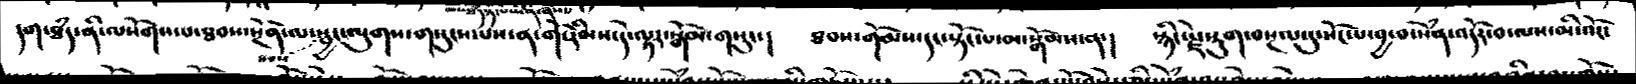དག་ཐཾད་ནི་ལསོགས་པ་ཐབས་སྔོན་ལ་སྦྱང་ལུགས་གསུང་པས་ན་གོ་རིམས་དེ་ལྟར་སྒོམ་གསུང་།    ཐབས་གོམས་དང་སྟོང་པ་མ་སྒོམས་ན་།   སྙིང་རྗེ་སྡུག་བསྔལ་དུ་སོང་པ་བྱ་བ་སེཾན་འདོར་བ་ལས་མི་འོང་
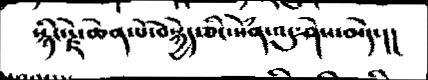སྙིང་རྗེ་ཆེན་པོ་བསྐྱེད་ཅིང་སེཾན་འདུ་ཤེས་མེད་།།
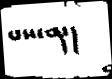པས་ན་།
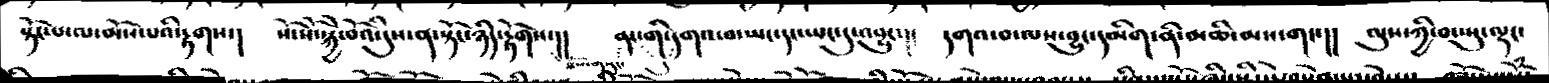སྟོང་པ་ལ་མོས་པའི་རྟགས་།  སོ་སོ་སྐྱེ་བོའི་དུས་ན་སྟོང་ཉིད་རྟོགས་།།  ནང་གི་དགའ་བ་ཡང་དང་ཡང་དུ་འབྱུང་།།  དགའ་བ་ལས་བྱུང་དམིག་ནི་མཆི་མས་གང་།།   ལུས་ཀྱི་བ་སྤུ་ལྡང་
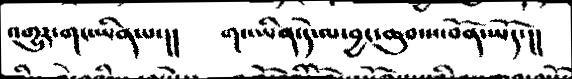འགྱུར་གང་ཡིན་པ་།།   གང་ཡིན་དེ་ལ་བྱང་ཆུབ་ས་བོན་ཡོད་།།
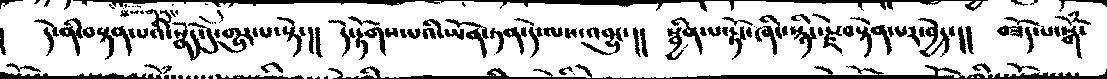།   དེ་ནི་བསྟན་པའི་སྣོད་དུ་གྱུར་པ་སྟེ་།།  དེ་རྟོགས་པའི་ཡོན་ཏན་དེ་ལས་འབྱུང་།།   སྦྱིན་པ་རྟོང་ཞིང་སྙིང་རྗེ་བསྟེན་པར་བྱེད་།།  བཟོད་པ་སྒོཾ་
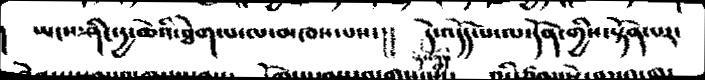ཡངས་ཤིང་དྱ་ཆེའི་ཐེག་པ་ལ་མཁས་པས་།།   དེ་འདོད་པ་ལ་དོན་གྱིས་སྟོན་པར་
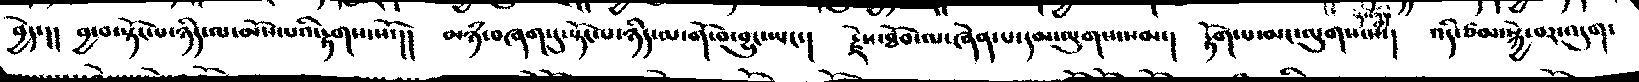བྱེད་།།   བྱ་བ་སྟོང་པ་ཉིད་ལ་མོས་པའི་རྟགས་སོ་།།   མཉཾ་བཞག་དུ་སྟོང་པ་ཉིད་ལ་གོ་བ་བྱུང་ཡང་།  རྗེས་ཐོབ་ལ་ཞེན་པ་དམ་ལུགས་སམ་།  རྟོག་པ་མང་ལུགས་སོ་།   འདི་ཙམ་སྐྱེ་བར་འདུག་
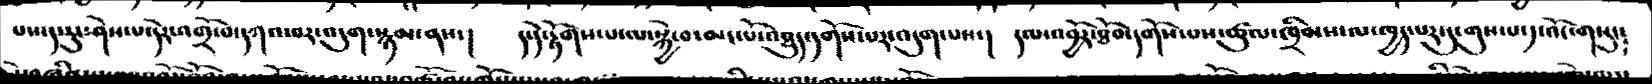པས་ད་རུང་ཤེས་པ་དེར་འགྲོ་བ་དཀའ་བར་འདུག་སྙམ་ནས་།    ད་དེ་རྟོགས་པ་ལ་སྐྱེ་བ་མང་པོ་འཐུད་དགོས་པར་འདུག་པས་།   དལ་འབྱོར་ཐོབ་དགོས་པས་ཚུལ་ཁྲིམས་ལ་ཁྱད་པར་དུ་གུས་པ་༡་འོང་གསུ་༴
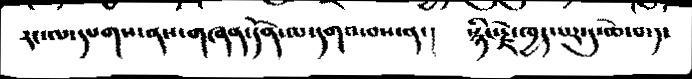རང་ལ་དཔགས་ནས་གཞན་དོན་ལ་དགའ་བས་ན་།   སྙིང་རྗེ་ཁྱད་པར་དུ་ཆེ་བ་༡་
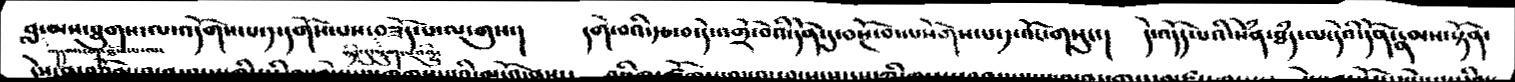བླ་མས་ཐུགས་ལ་འདོགས་པ་༡་དགོས་པས་བཟོད་པ་ལ་གུས་།     དགེ་བའི་རྩ་བ་དེ་འགྲོ་བའི་དོན་དུ་བསྔོ་བ་ལསོགས་པ་༡་འོང་གསུང་།   དེ་འདོད་པའི་སེཾན་ཐཾད་ལ་དེའི་དོན་རྣམས་སྟོན་
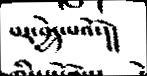པར་བྱེད་པའོ་།།
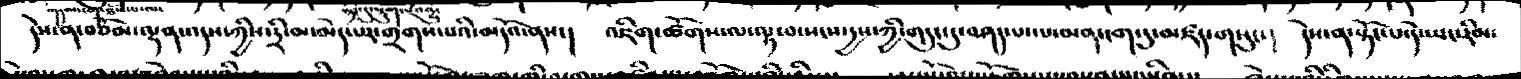དེས་ན་བཅོམ་ལྡན་འདས་ཀྱིས་དྲི་མ་མེད་པར་གྲོགས་པའི་མདོའ་ནས་།  འཇིག་ཚོགས་ལ་ལྟ་བ་སངས་དྱས་ཀྱི་གདུང་དུ་བཤད་པ་ལ་མན་ངག་དུ་མཛད་གསུང་།    དེས་ན་སྟོང་པ་དེ་ཡང་རིམ་
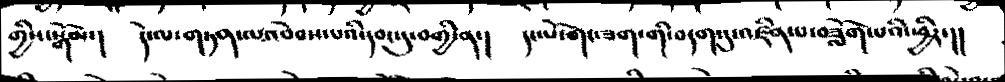གྱིས་སྒོམ་།   དེ་ལ་གཏན་ལའབེབས་པའི་དབང་དུ་བགྱི་ན་།  དང་པོ་གང་ཟག་གི་བདག་དུ་འཛིན་པ་བཟློག་པའི་ཕྱིར་།།
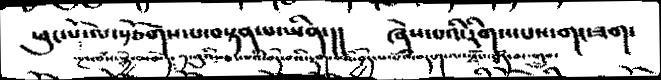ཕུང་པོ་ལ་སྩོགས་པ་བསྟན་པ་ཡིན་།།  ཞེས་པའི་རིགས་པས་གང་ཟག་
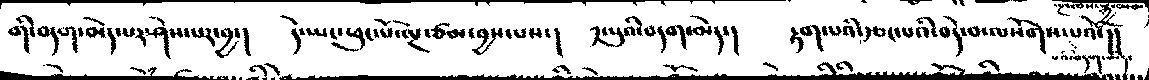གི་བདག་མེད་པར་ཤེས་པར་བྱ་།    དེ་ཡང་ཕུང་པོ་ལྔ་ཙམ་བྱས་པས་།   ༡་པུའི་བདག་མེད་།    རྟག་པའི་རྩང་པའི་བདེ་བ་ལསོགས་པའོ་།།
